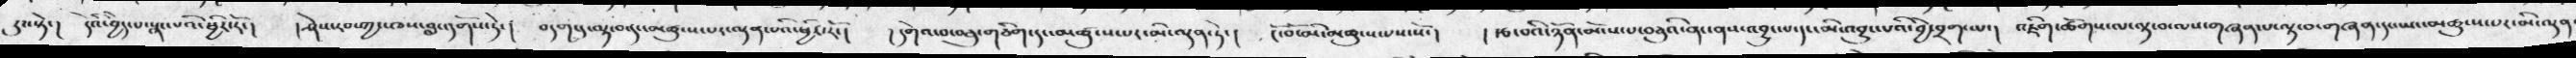རུང་སྟེ་།  དེའི་བྱེད་པ་སྣང་པའི་ཕྱིར་རོ་།  ། ཤེས་རབ་ཀྱང་ཁས་བླང་དགོས་ཏེ་།  བདག་དུ་ལྟ་བར་མཚུངས་པར་ལྡན་པའི་ཕྱིར་རོ་།  ། དགེའ་བ་བཅུ་གཅིག་དང་མཚུངས་པར་མི་ལྡན་ཏེ་།  ངོ་བོ་མི་མཚུངས་པས་སོ་།  ། རྩ་བའི་ཉོན་མོངས་པ་བཅུའི་ནང་ནས་འབྱུང་པ་དང་མི་འབྱུང་པའི་བྱེ་བྲག་པ་།  འཇིག་ཚོགས་ལ་ལྟ་བ་ལས་གཞན་པ་ལྟ་བ་གཞན་དང་ཡང་མཚུངས་པར་མི་ལྡན
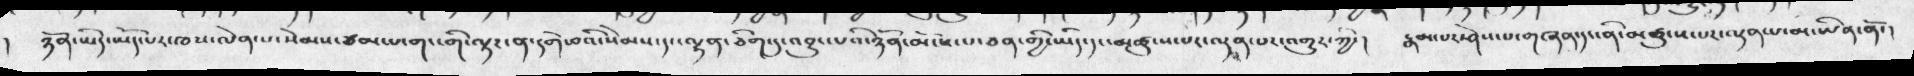ཉོན་ཡིད་ཡོད་པར་ཁས་ལེན་པ་སེམས་ཙམ་པ་གང་གི་ལྟར་ན་དགེ་བའི་སེམས་དང་ལྷན་ཅིག་དུ་འབྱུང་པའི་ཉོན་མོངས་པ་ཅན་གྱི་ཡིད་དང་མཚུངས་པར་ལྡན་པར་འགྱུར་ཀྱི་།  རྣམ་པར་ཤེས་པ་གཞན་དང་ནི་མཚུངས་པར་ལྡན་པ་མ་ཡིན་ནོ་།
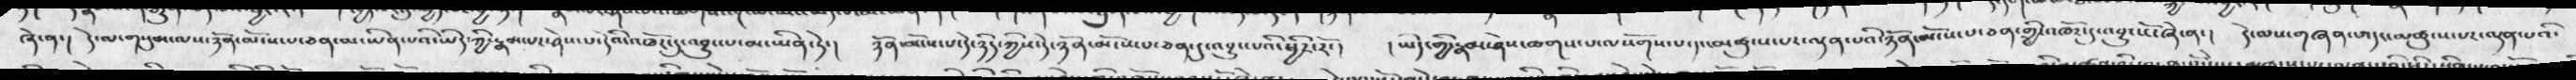ཞེ་ན་།  དེ་ལ་གསུམ་ལས་ཉོན་མོངས་པ་ཅན་མ་ཡིན་པའི་ཡིད་ཀྱི་རྣམ་པར་ཤེས་པ་དེའི་འཁོར་དུ་འབྱུང་པ་མ་ཡིན་ཏེ་།   ཉོན་མོངས་པ་དེ་ཉིད་ཀྱིས་དེ་ཉོན་མོངས་པ་ཅན་དུ་འབྱུང་པའི་ཕྱིར་རོ་།   ། ཡིད་ཀྱི་རྣམ་ཤེས་ཆགས་པ་ལསོགས་པ་དང་མཚུངས་པར་ལྡན་པའི་ཉོན་མོངས་པ་ཅན་གྱི་འཁོར་དུ་འབྱུངསོ་ཞེ་ན་།   དེ་ལས་གཞན་པ་དང་མཚུངས་པར་ལྡན་པའི་
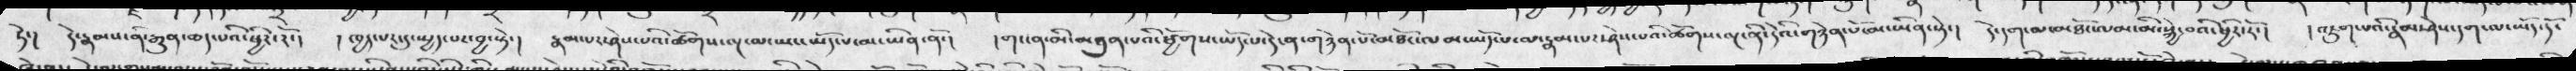ཏེ་།  དེ་རྣམས་ནི་རྒྱུན་ཆད་པའི་ཕྱིར་རོ་།   ། ཁྱད་པར་དུ་སྤྱད་པར་བྱ་སྟེ་།  རྣམ་པར་ཤེས་པའི་ཚོགས་ལྔ་མ་ཡང་ཡོད་པ་མ་ཡིན་ནོ་།   །གང་ན་མི་མཐུན་པའི་ཕྱོགས་ཡོད་པ་དེ་ན་གཉེན་པོ་མཐོང་ལམ་ཡོད་པ་ལ་རྣམ་པར་ཤེས་པའི་ཚོགས་ལྔ་ནི་དེའི་གཉེན་པོ་མ་ཡིན་ཏེ་།  དེ་དག་ལ་མཐོང་ལམ་མི་སྐྱེ་བའི་ཕྱིར་རོ་།  ། འཇུག་པའི་རྣམ་ཤེས་དག་ལ་ཡོད་དོ་
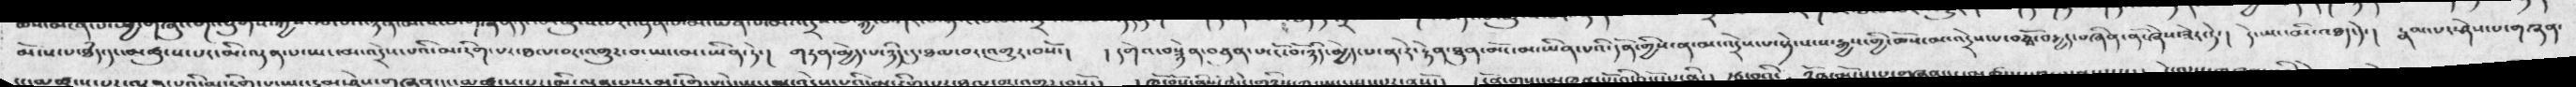མོངས་པ་ཐཾད་དང་མཚུངས་པར་མི་ལྡན་པ་ཡང་མ་འདྲེས་པའི་མ་རིག་པ་ཐལ་བར་འགྱུར་བ་ཡང་མ་ཡིན་ཏེ་།  གཏན་མྱེད་པ་ཉིད་དུ་ཐལ་བར་འགྱུར་བསོ་།  །  དགེའ་བསྙེན་བཙུན་པ་ངོ་བོ་ཉིད་མྱེད་པ་ན་དེ་རྟེན་ཐུན་མོང་མ་ཡིན་པའི་དོན་གྱིས་ན་མ་འདྲེས་པ་སྟེ་སངས་རྒྱས་ཀྱི་ཆོས་མ་འདྲེས་པ་བཅྭོ་བརྒྱད་བཞིན་ནོ་ཞེས་ཟེར་ཏེ་།  དེ་ཡང་མི་འཐད་དེ་།  རྣམ་པར་ཤེས་པ་གཞན་
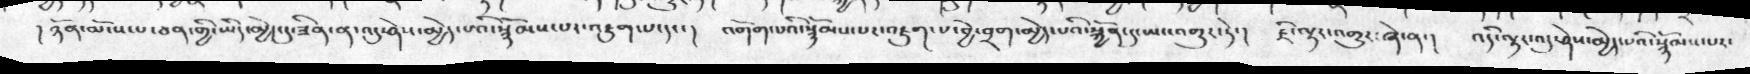། ཉོན་མོངས་པ་ཅན་གྱི་ཡིད་མྱོད་དུ་ཟིན་ན་འདུ་ཤེས་མྱེད་པའི་སྙོམས་པར་འཇུག་པ་དང་།  འགོག་པའི་སྙོམས་པར་འཇུག་པ་བྱེ་བྲག་མྱེད་པའི་སྐྱོན་དུ་སྤང་འགྱུར་ཏེ་།   ཇི་ལྟར་འགྱུར་ཞེ་ན་།  འདི་ལྟར་འདུ་ཤེས་མྱེད་པའི་སྙོམས་པར་
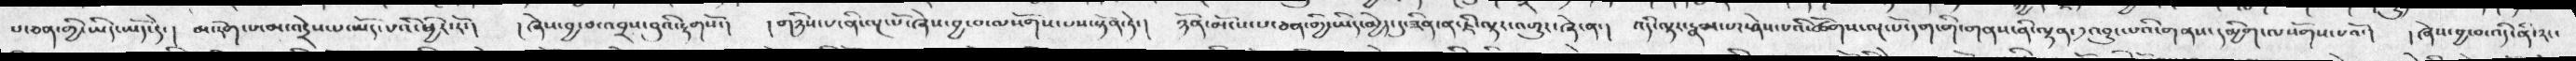པ་ཅན་གྱི་ཡིད་ཡོད་དེ་།   མ་རེག་པ་མ་འདྲེས་པ་ཡོད་པའི་ཕྱིར་རོ་།   ། ཞེས་བྱ་བ་འབྲས་བུའི་རྟགསོ་།   ། གཉིས་པ་ནི་ལྔ་པོ་ཞེས་བྱ་བ་ལསོགས་པས་སྟོན་ཏེ་།  ཉོན་མོངས་པ་ཅན་གྱི་ཡིད་མྱེད་དུ་ཟིན་ན་ཇི་ལྟར་འགྱུར་ཞེ་ན་།   འདི་ལྟར་རྣམ་པར་ཤེས་པའི་ཚོགས་ལྔ་པོ་དག་གི་གནས་ནི་ལྷན་༡་འབྱུང་པའི་གནས་དམྱིགས་ལསོགས་པའོ་།   ། ཞེས་བྱ་བ་འདི་ནི་རང་
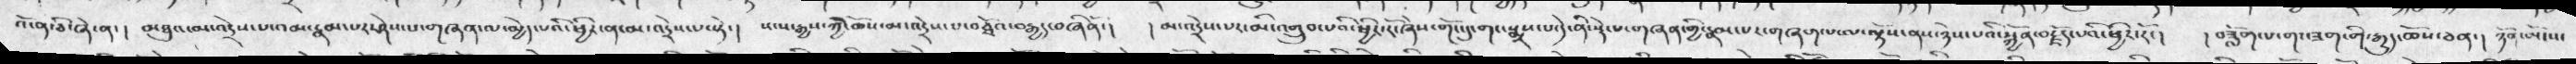འོ་ན་ཅི་ཞེ་ན་།   མཐུའ་མ་འདྲེས་པ་འམ་རྣམ་པར་ཤེས་པ་གཞན་ལ་མྱེད་པའི་ཕྱིར་ན་མ་འདྲེས་པ་སྟེ་།   སངས་རྒྱས་ཀྱི་ཆོས་མ་འདྲེས་པ་འཐོབ་བརྒྱད་བཞིནོ་།   ། མ་འདྲེས་པར་མི་འགྲུབ་པའི་ཕྱིར་རོ་ཞེས་གོང་དུ་གང་སྨྲས་པ་དེ་ནི་སྙེད་པ་གཞན་གྱི་རྣམ་པར་གཞག་པ་ལ་ལྟོས་ནས་ཉེས་པའི་སྐྱོན་བརྗོད་པའི་ཕྱིར་རོ་།   ། བཟློག་པ་གང་ཟག་གི་རྒྱུད་ཆོས་ཅན་།  ཉོན་མོངས་
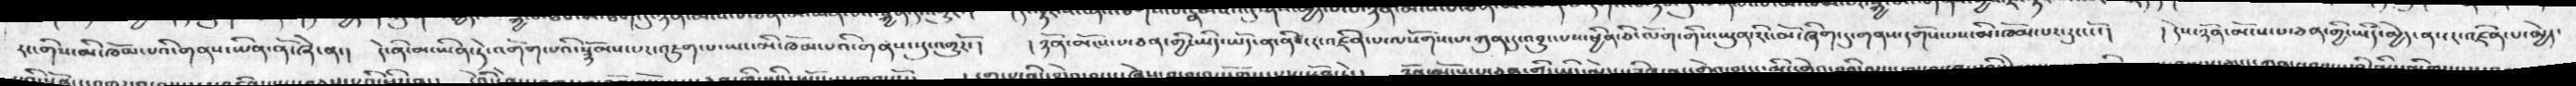རང་གིས་མི་ཁོམ་པའི་གནས་ཡིན་ནོ་ཞེ་ན་།   དེ་ནི་མ་ཡིན་དེ་འགོག་པའི་སྙོམས་པར་འཇུག་པ་ཡང་མི་ཁོམ་པའི་གནས་སུ་འགྱུརོ་།   ། ཉོན་མོངས་པ་ཅན་གྱི་ཡིད་ཡོད་ན་ནི་ངར་འཛིན་པ་ལསོགས་པ་ཀུན་དུ་འབྱུང་པས་ཕྱིན་ཅི་ལོག་གིས་ཡུན་རིང་མོ་ཞིག་དུ་གནས་དགོས་པས་མི་ཁོམ་པར་རུངསོ་།   ། དེས་ཉོན་མོངས་པ་ཅན་གྱི་ཡིད་མྱེད་ན་ངར་འཛིན་པ་མྱེད་
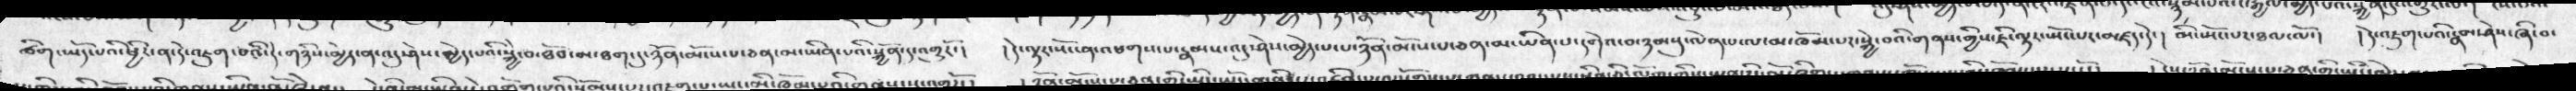ཚིག་ཡོད་པའི་ཕྱིར་ན་དེ་འཇུག་པའི་དེ་གཉིས་མྱེད་ན་འདུ་ཤེས་མྱེད་པའི་སྐྱེ་བ་ཐོབ་མ་ཐག་དུ་ཉོན་མོངས་པ་ཅན་མ་ཡིན་པའི་སྐྱོན་དང་འགྱུརོ་།   ། དེ་ལྟར་སོང་ན་འཕགས་པ་རྣམས་འདུ་ཤེས་མྱེད་པ་པ་ཉོན་མོངས་པ་ཅན་མ་ཡིན་པ་དགེའ་བ་ཉམསུ་ལེན་པ་ལ་མ་ཁོམ་པར་སྐྱེ་བའི་གནས་གྱིས་ཇི་ལྟར་སྤོང་པར་མཛད་དེ་།  མི་སྤོང་པར་ཐལ་ལོ་།   ། དེ་འཇུག་པའི་རྣམ་ཤེས་ཞི་བ་
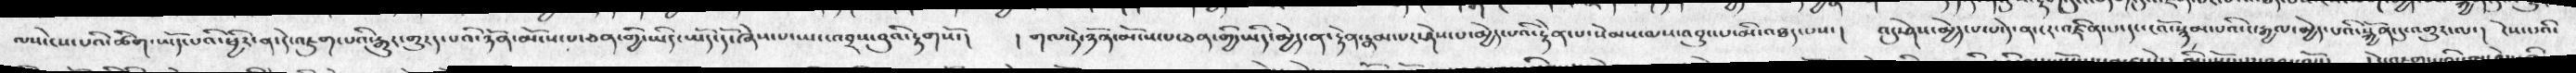ལས་ངེས་པའི་ཚིག་ཡོད་པའི་ཕྱིར་ན་དེ་འཇུག་པའི་རྒྱུར་གྱུརད་པའི་ཉོན་མོངས་པ་ཅན་གྱི་ཡིད་ཡོད་དོ་ཞེས་པ་ཡང་འབྲས་བུའི་རྟགསོ་།   ། གལ་ཏེ་ཉོན་མོངས་པ་ཅན་གྱི་ཡིད་མྱེད་ན་རྟེན་རྣམ་པར་ཤེས་པ་མྱེད་པའི་རྟེན་པ་སེམས་ལས་འབྱུང་པ་མི་འཐད་པས་།   འདུ་ཤེས་མྱེད་པ་པ་དེ་ན་ངར་འཛིན་པ་དང་ངའོ་སྙམས་པའི་ང་རྒྱལ་མྱེད་པའི་སྐྱོན་དུ་འགྱུར་ལ་།   ངེས་པའི་
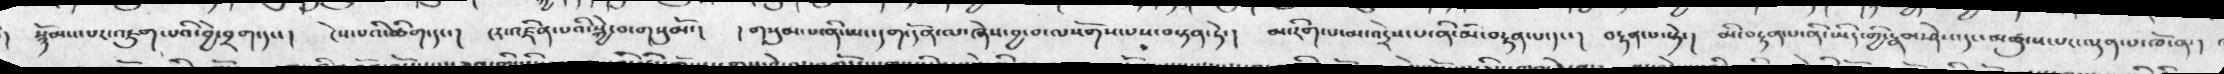སྙོམས་པར་འཇུག་པའི་བྱེ་བྲག་དང་།   ངེས་པའི་ཚིག་དང་།   ངར་འཛིན་པའི་སྐྱེ་བ་གསུམོ་།   ། གསུམ་པ་ནི་ཡང་དག་དོན་ལ་ཞེས་བྱ་བ་ལསོགས་པས་བསྟན་ཏེ་།   མ་རིག་པ་མ་འདྲེས་པ་ནི་མི་བརྟན་པ་དང་།  བརྟན་པ་སྟེ་།   མི་བརྟན་པ་ནི་ཡིད་གྱི་རྣམ་ཤེས་དང་མཚུངས་པར་ལྡན་པ་ཁོ་ན་།
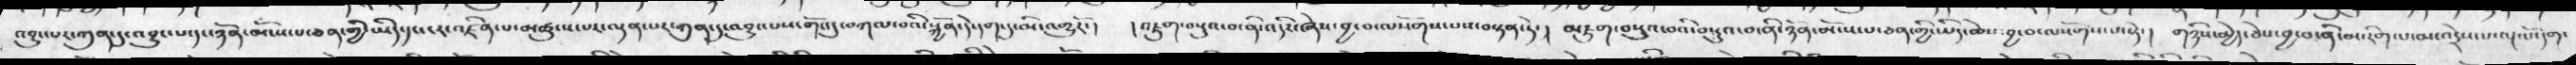འབྱུང་པར་ཀུན་དུ་འབྱུང་པ་དང་ཉོན་མོངས་པ་ཅན་གྱི་ཡིད་དང་འཛིན་པ་མཚུངས་པར་ལྡན་པར་ཀུན་དུ་འབྱུང་པས་གོང་དུ་བཀལ་བའི་སྐྱོན་དེ་དག་དུ་མི་འགྱུརོ་།  ། འཇུག་བསྡུའ་བ་ནི་འདིར་ཞེས་བྱ་བ་ལསོགས་པས་བསྟན་ཏེ་།   མཇུག་བསྡུའ་བའི་བསྡུའ་བ་ནི་ཉོན་མོངས་པ་ཅན་གྱི་ཡིད་ཆེས་བྱ་བ་ལསོགས་པ་སྟེ་།   གཉིས་མྱེད་ཅེས་བྱ་བ་ནི་མ་རིག་པ་མ་འདྲེས་པ་ལྔ་པོ་དག་
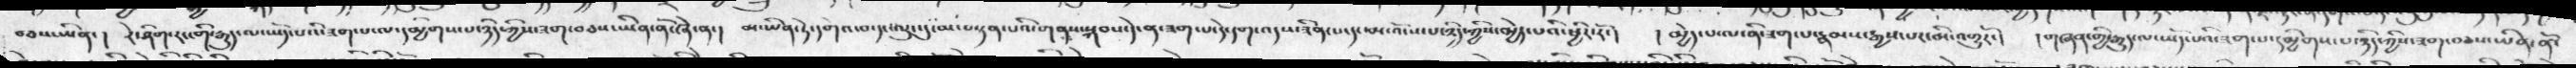བཅས་ཡིན་།   རེ་ཤིག་རང་གི་རྒྱུད་ལ་ཡོད་པའི་ཟག་པ་ལ་དམྱིགས་པ་ཉིད་ཀྱིས་ཟག་བཅས་ཡིན་ནོ་ཞེ་ན་།   མ་ཡིན་ཏེ་དགེའ་བ་དང་ལུང་དུ་མ་བསྟན་པའི་གནས་སྐབས་དེ་ན་ཟག་པ་དེ་དག་འདས་ཟིན་པ་དང་མ་འོང་པ་ཉིད་གྱིས་མྱེད་པའི་ཕྱིར་རོ་།   ། མྱེད་པ་ལ་ནི་ཟག་པ་རྣམས་རྒྱས་པར་མི་འགྱུརོ་།   གཞན་གྱི་རྒྱུད་ལ་ཡོད་པའི་ཟག་པ་དམྱིགས་པ་ཉིད་ཀྱིས་ཟག་བཅས་ཡིན་ནོ་
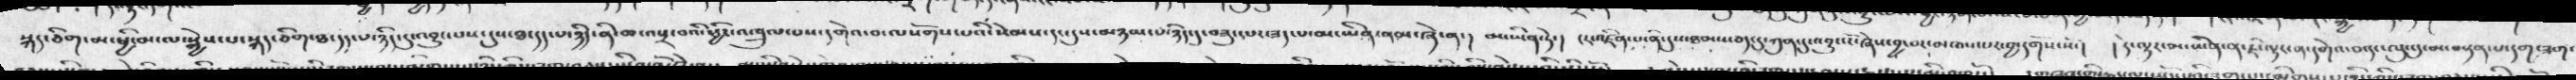སྐང་ཅིག་མ་ཕྱི་མ་ལ་སྐྱེས་པ་སྐད་ཅིག་ཐ་དད་པ་ཉིད་དུ་འབྱུང་པས་དུས་ཐ་དད་པ་ཉིད་ནི་ཆ་འཕྲ་བའི་ཕྱིར་འཁྲུལ་པས་དགེའ་བ་ལསོགས་པའི་སེམས་དང་དུས་མཉམ་པ་ཉིད་དུ་བཟུངཔ་ཟད་པ་མ་ཡིན་ནམ་ཞེ་ན་།   མ་ཡིན་ཏེ་།   ངར་འཛིན་པ་ནི་དུས་ཐམས་ཅད་དུ་ཀུན་དུ་འབྱུང་ངོ་ཞེས་བྱ་བ་མཁས་པར་བྱ་དགོས་སོ་།    ། དེ་ལྟར་མ་ཡིན་ན་ཇི་ལྟར་ན་དགེའ་བ་དང་ལུང་མ་བསྟན་པ་དག་ཟག་
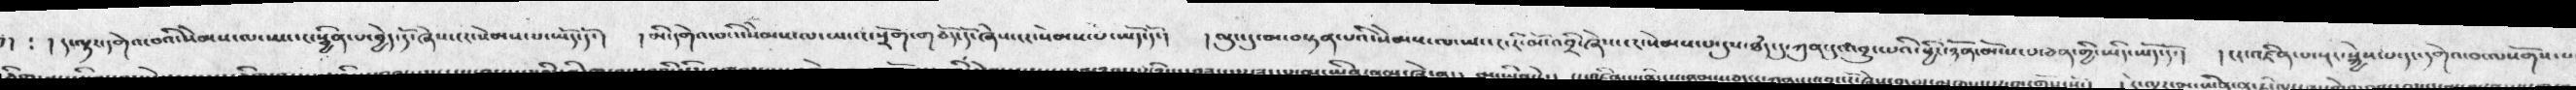།།   ། ད་ལྟར་དགེའ་བའི་སེམས་ལ་ཡང་ང་སྦྱིན་པ་བྱེད་དོ་ཞེས་ངར་སེམས་པ་ཡོད་དོ་།    ། མི་དགེའ་བའི་སེམས་ལ་ཡང་ང་སྲོག་གཅོད་དོ་ཞེས་ངར་སེམས་པ་ཡོད་དོ་།   ། ལུང་དུ་མ་བསྟན་པའི་སེམས་ལ་ཡང་ང་རི་མོ་འབྲི་ཞེས་ངར་སེམས་པ་དུས་ཐཾད་དུ་ཀུན་དུ་འབྱུང་པའི་ཕྱིར་ཉོན་མོངས་པ་ཅན་གྱི་ཡིད་ཡོད་དོ་།   ། ངར་འཛིན་པ་སྔར་སྐྱེས་པ་དང་དགེའ་བ་ལསོགས་པ་
